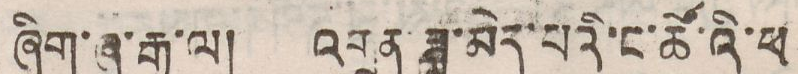ཞིག་ཞུ་རྒྱ་ལ། འགྲན ཟླ་མེད་པའི་ང་ཚོ་འི་ཕ
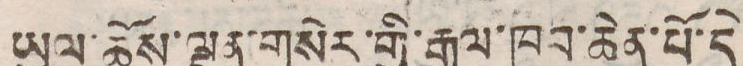ཡུལ་ཆོས་ལྡན་གསེར་གྱི་རྒྱལ་ཁབ་ཆེན་པོ་དེ
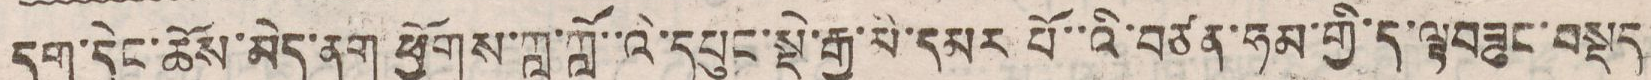དག་དེང་ཆོས་མེད་ནག ཕྱོགས་ཀླ་ཀློ་་འི་དཔུང་སྡེ་རྒྱ་མི་དམར་པོ་་འི་བཙན་ཧམ་གྱི་ད་ལྟ བཟུང་བསྡད
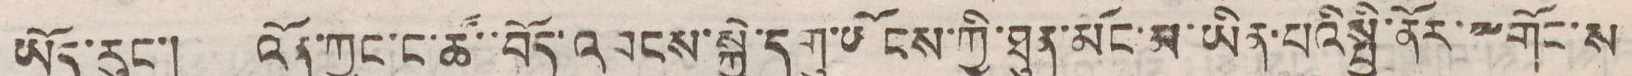ཡོད་རུང་། འོན་ཀྱང་ང་ཚོ་་བོད་འབངས་སྐྱེ་དགུ་ཡོངས་ཀྱི་ཐུན་མོང་མ་ཡིན་པའི་སྤྱི་ནོར་༸གོང་ས
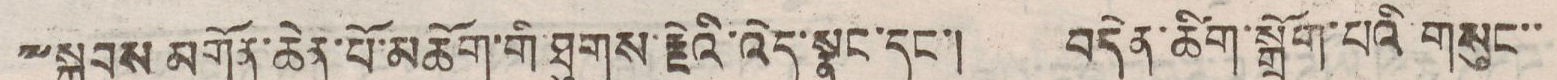༸སྐྱབས མགོན་ཆེན་པོ་མཆོག་གི་ཐུགས་རྗེའི་འོད་སྣང་དང་། བདེན་ཚིག་སྒྲོག་པའི་གསུང་་
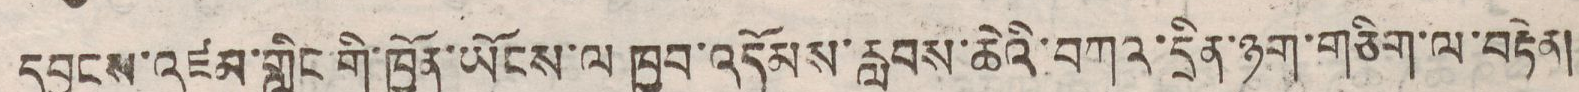དབྱངས་འཛམ་གླིང་གི་ཁྱོན་ཡོངས་ལ ཁྱབ་འདོམས་རླབས་ཆེའི་བཀའ་དྲིན་ཉག་གཅིག་ལ་བརྟེན།
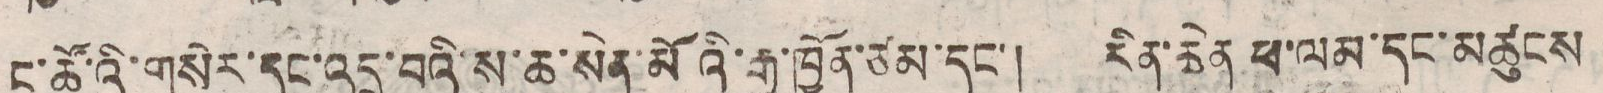ང་ཚོའི་གསེར་དང་འདྲ་བའི་ས་ཆ་སེན་མོའི་རྒྱ་ཁྱོན་ཙམ་དང་། རིན་ཆེན ཕ་ལམ་དང་མཚུངས
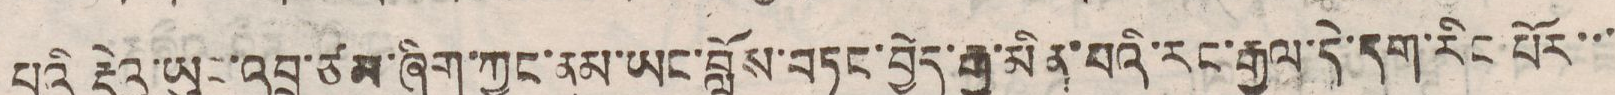པའི རྡེའུ་ཡུང་འབྲུ་ཙམ་ཞིག་ཀྱང་ནམ་ཡང་བློས་བཏང་བྱེད་རྒྱུ་མིན་པའི་རང་རྒྱལ་དེ་དག་རིང་པོར་་་
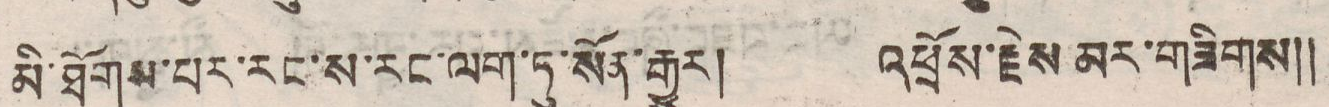མི་ཐོགས་པར་རང་ས་རང་ལག་ཏུ་སོན་རྒྱུར། འཕྲོས་རྗེས མར་གཟིགས།།
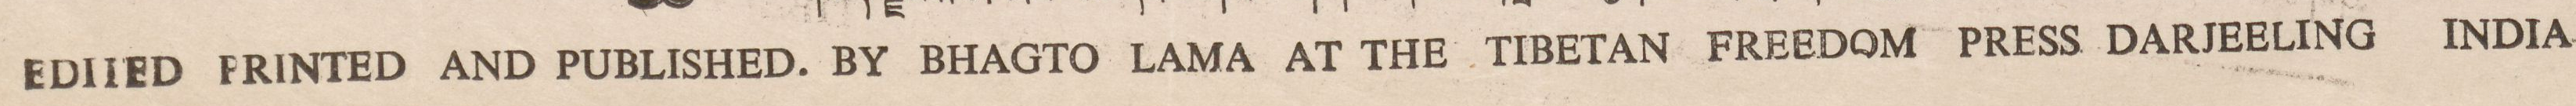EDITED PRINTED AND PUBLISHED. BY BHAGTO LAMA AT THE TIBETAN FREEDOM PRESS DARJEELING INDIA
